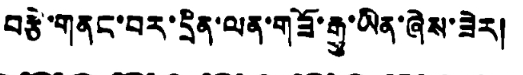བརྩེ་གནང་བར་དྲིན་ལན་གཟོ་རྒྱུ་ཡིན་ཞེས་ཟེར།
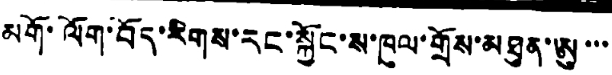མགོ་ལོག་བོད་རིགས་རང་སྐྱོང་ས་ཁུལ་གྲོས་མཐུན་ཨ་་་
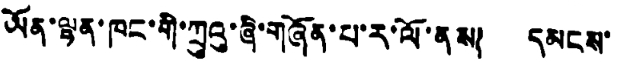ཡོན་ལྷན་ཁང་གི་ཀྲུའུ་ཞི་གཞོན་པ་ར་ལོ་ནས། དམངས་
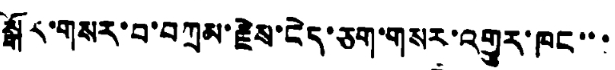སྒོར་གསར་བ་བཀྲམ་རྗེས་ངེད་ཅག་གསར་འགྱུར་ཁང་་་
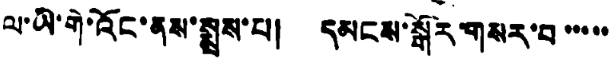ལ་ཡི་གེ་འོང་ནས་སྨྲས་པ། དམངས་སྒོར་གསར་བ་་་་་
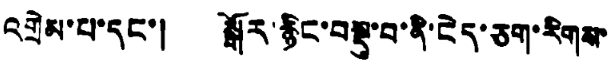འགྲེམ་པ་དང་། སྒོར་རྙིང་བསྡུ་བ་ནི་ངེད་ཅག་རིགས་
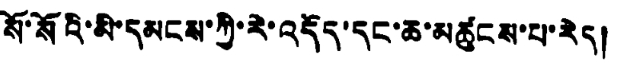སོ་སོའི་མི་དམངས་ཀྱི་རེ་འདོད་དང་ཆ་མཚུངས་པ་རེད།
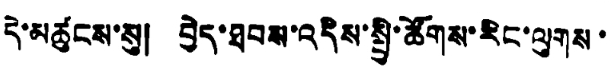དེ་མཚུངས་སུ། བྱེད་ཐབས་འདིས་སྤྱི་ཚོགས་རིང་ལུགས་
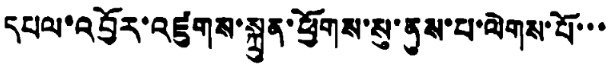དཔལ་འབྱོར་འཛུགས་སྐྲུན་ཕྱོགས་སུ་ནུས་པ་ལེགས་པོ་་་
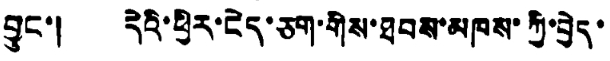བྱུང་། དེའི་ཕྱིར་ངེད་ཅག་གིས་ཐབས་མཁས་ཀྱི་བྱེད་
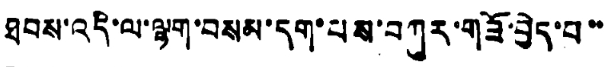ཐབས་འདི་ལ་ལྷག་བསམ་དག་པས་བཀུར་གཟོ་བྱེད་པ་་
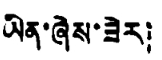ཡིན་ཞེས་ཟེར།
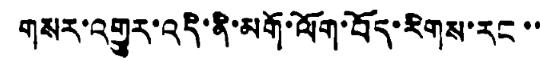གསར་འགྱུར་འདི་ནི་མགོ་ལོག་བོད་རིགས་རང་་
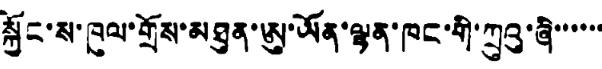སྐྱོང་ས་ཁུལ་གྲོས་མཐུན་ཨུ་ཡོན་ལྷན་ཁང་གི་ཀྲུའུ་ཞི་་་་་་་
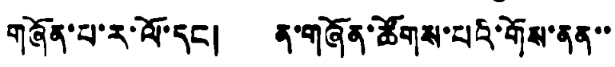གཞོན་པ་ར་ལོ་དང། ན་གཞོན་ཚོགས་པའི་གོས་ནན་་
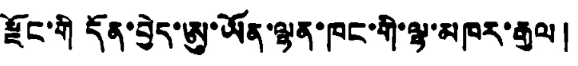རྫོང་གི དོན་བྱེད་ཨུ་ཡོན་ལྷན་ཁང་གི་ལྷ་མཁར་རྒྱལ།
